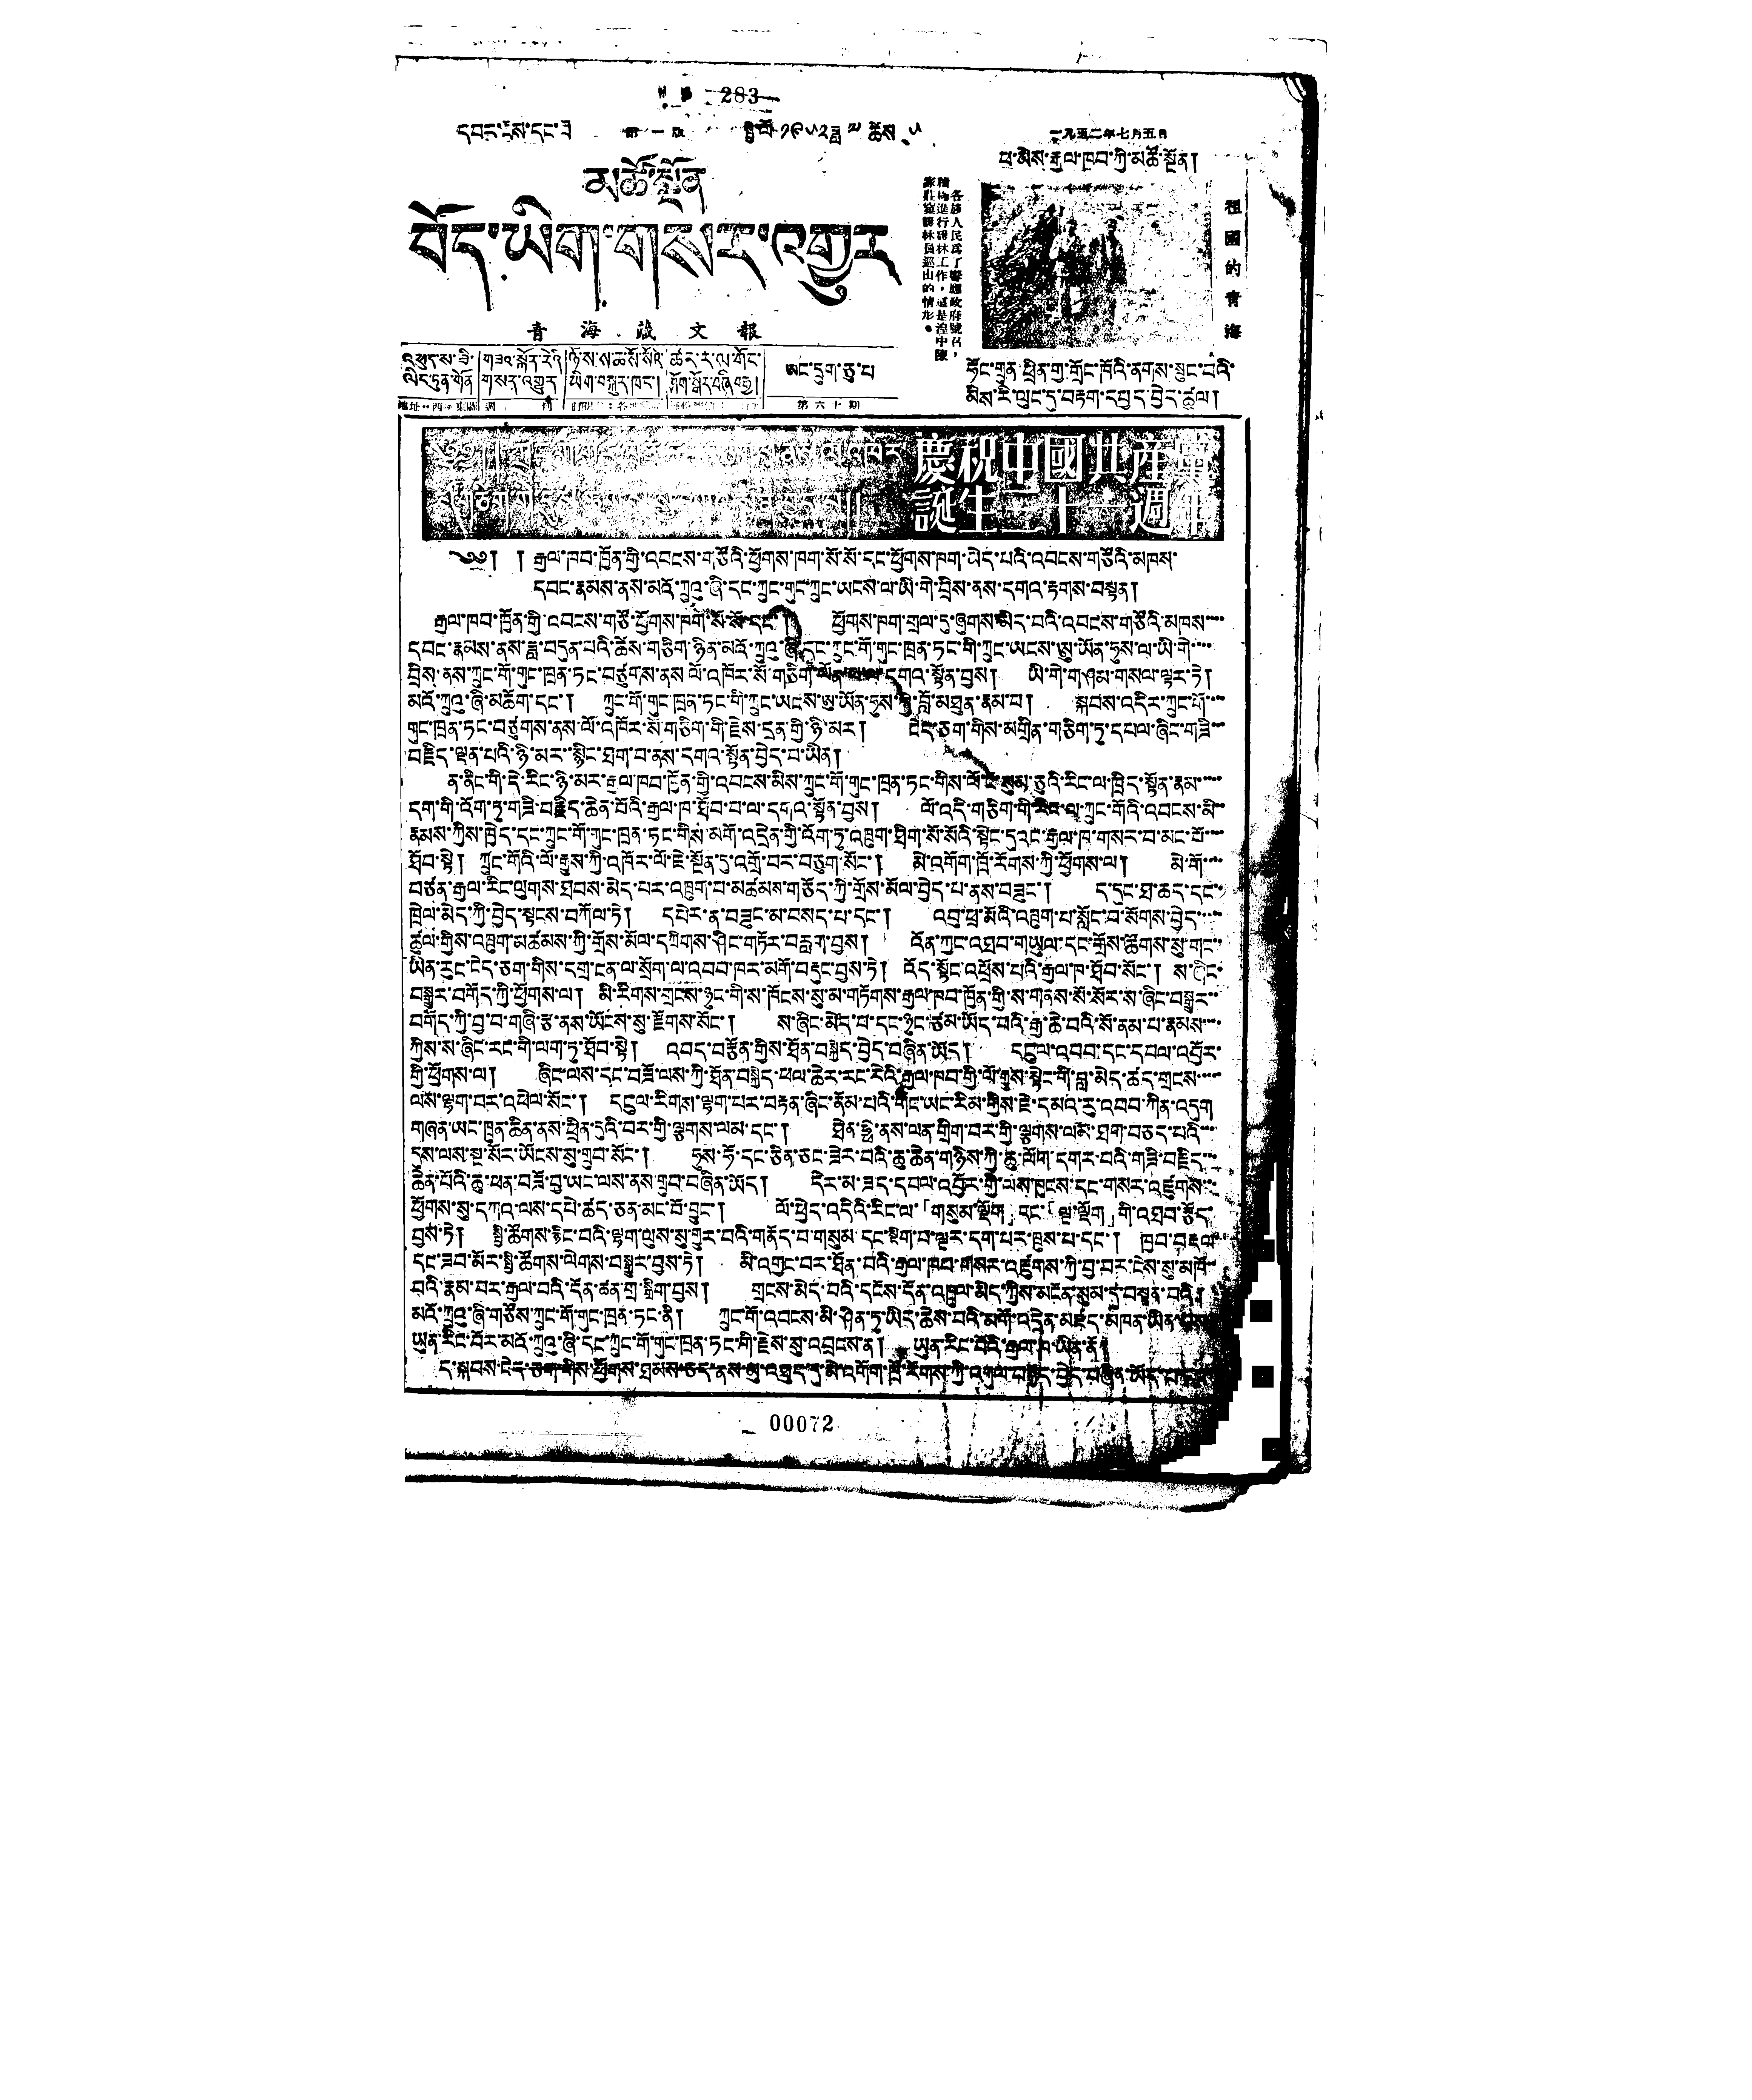283
འདར་ངོས་དང་པོ 第一版 སྤྱི་ལོ་ ༡༩༥༢ཟླ ༧ ཚེས ༥
མཚོ་སྔོན
བོད་ཡིག་གསར་འགྱུར
青 海 藏 文 報
祖 國 的 靑 海
各族人民爲了相應政府號召，
積極進行護林工作，這是湟中陳
家莊窠護林員巡山的情況。
一九五二年七月五日
ཕ་མེས་རྒྱལ་ཁབ་ཀྱི་མཚོ་སྔོན།
ཧོར་གྲུན ཕྲིན་གྱ་གྲོང་ཁོའི་ནགས་སྲུང་བའི་
མིས་རི་ལུང་དུ་བརྟག་དཔྱད་བྱེད་ཚུལ།
༄༅། །ཀྲུང་གོ་གུང་ཁྲན་ཏང་བཙུགས་ནས་ལོ་འཁོར་ 慶祝中國共產黨
སོ་གཅིག་གི་དུས་ཚིགས་སུ་དགའ་སྟོན་བྱེད་པ།། 誕生三十一週年
༄༅། ། རྒྱལ་ཁབ་ཁྱོན་གྱི་འབངས་གཙོའི་ཕྱོགས་ཁག་སོ་སོ་དང་ཕྱོགས་ཁག་མེད་པའི་འབངས་གཙོའི་མཁས་
དབང་རྣམས་ནས་མའོ་ཀྲུའུ་ཞི་དང་ཀྲུང་གུང་ཀྲུང་ཡངས་ལ་ཡི་གེ་བྲིས་ནས་དགའ་རྟགས་བསྟན།
རྒྱལ་ཁབ་ཁྱོན་གྱི་འབངས་གཙོ་ཕྱོགས་ཁག་སོ་སོ་དང་། ཕྱོགས་ཁག་གྲལ་དུ་ཞུགས་མེད་པའི་འབངས་གཙོའི་མཁས་་་་
དབང་རྣམས་ནས་ཟླ་བདུན་པའི་ཚེས་གཅིག་ཉིན་མའོ་ཀྲུའུ་ཞི་དང་ཀྲུང་གོ་གུང་ཁྲན་ཏང་གི་ཀྲུང་ཡངས་ཨུ་ཡོན་ཧུས་ལ་ཡི་གེ་་་་
བྲིས་ནས་ཀྲུང་གོ་གུང་ཁྲན་ཏང་བཙུགས་ནས ལོ་འཁོར་སོ་གཅིག་ལོན་པ་ལ་དགའ་སྟོན་བྱས། ཡི་གེ་གཤམ་གསལ་ལྟར་ཏེ།
མའོ་ཀྲུའུ་ཞི་མཆོག་དང་། ཀྲུང་གོ་གུང་ཁྲན་ཏང་གི་ཀྲུང་ཡངས་ཨུ་ཡོན་ཧུས་ཀྱི་བློ་མཐུན་རྣམ་པ། སྐབས་འདིར་ཀྲུང་གོ་་་་
གུང་ཁྲན་ཏང་བཙུགས་ནས་ལོ་འཁོར་ས་གཅིག་གི་རྗེས་དྲན་གྱི་ཉི་མར། བེད་ཅག་གིས་མགྲིན་གཅིག་ཏུ་དཔལ་ཞིང་གཟི་་་
བརྗིད་ལྡན་པའི་ཉི་མར་་སྙིང་ཐག་པ་ནས་དགའ་སྟོན་བྱེད་པ་ཡིན།
ན་ནིང་གི་དེ་རིང་ཉི་མར་རྒྱལ་ཁབ་ཁྱོན་གི་འབངས་མིས་ཀྲུང་གོ་གུང་ཁྲན་ཏང་གིས་ལོ་ངོ་སུམ་ཅུའི་རིང་ལ་ཁྲིད་སྟོན་རྣམ་་་་་
དག་གི་འོག་ཏུ་གཟི་བརྗིད་ཆེན་པོའི་རྒྱལ་ཁ་ཐོབ་པ་ལ་དགའ་སྟོན་བྱས། ལོ་འདི་གཅིག་གི་རིང་ལ་ཀྲུང་གོའི་འབངས་མི་་
རྣམས་ཀྱིས་ཁྱེད་དང་ཀྲུང་གོ་གུང་ཁྲན་ཏང་གིས་མགོ་འདྲེན་གྱི་འོག་ཏུ་འཁྲུག་ཐིག་སོ་སོའི་སྟེང་དུའང་རྒྱལ་ཁ་གསར་བ་མང་པོ་་་་
ཐོབ་སྟེ། ཀྲུང་གོའི་ལོ་རྒྱུས་ཀྱི་འཁོར་ལོ་ཇེ་སྔོན་དུ་འགྲོ་བར་བཅུག་སོང་། མེ་འགོག་ཁྲོ་རོགས་ཀྱི་ཕྱོགས་ལ། མེ་གོ་་་་
བཙན་རྒྱལ་རིང་ལུགས་ཐབས་མེད་པར་འཁྲུག་པ་མཚམས་གཅོད་ཀྱི་གྲོས་མོལ་བྱེད་པ་ནས་བཟུང་། ད་དུང་ཐ་ཆད་དང་་
ཁྲེལ་མེད་ཀྱི་བྱེད་སྟངས་བཀོལ་ཏེ། དཔེར་ན་བཟུང་མ་བསད་པ་དང་། འབུ་ཕྲ་མོའི་འཁྲུག་པ་སློང་བ་སོགས་བྱེད་་་་་
ཚུལ་གྱིས་འཁྲུག་མཚམས་ཀྱི་གྲོས་མོལ་དཀྲིགས་ཤིང་གཏོར་བརླག་བྱས། འོན་ཀྱང་འཐབ་གཡུལ་དང་གྲོས་ཚོགས་སུ་གང་་
ཡིན་རུང་ངེད་ཅག་གིས་དགྲ་ངན་ལ་སྲོག་ལ་འབབ་ཁར་མགོ་བརྡུང་བྱས་ཏེ། འོད་སྟོང་འཕྲོས་པའི་རྒྱལ་ཁ་ཐོབ་སོང་། ས་ཞིང་
བསྒྱུར་བགོད་ཀྱི་ཕྱོགས་ལ། མི་རིགས་གྲངས་ཉུང་གི་ས་ཁོངས་སུ་མ་གཏོགས་རྒྱལ་ཁབ་ཁྱོན་གྱི་ས་གནས་སོ་སོར་ས་ཞིང་བསྒྱུར་་
བགོད་ཀྱི་བྱ་བ་གཞི་རྩ་ནས་ཡོངས་སུ་རྫོགས་སོང་། ས་ཞིང་མེད་པ་དང་ཉུང་ཙམ་ཡོད་པའི་རྒྱ་ཆེ་བའི་སོ་ནམ་པ་རྣམས་་་་
ཀྱིས་ས་ཞིང་རང་གི་ལག་ཏུ་ཐོབ་སྟེ། འབད་བརྩོན་གྱིས་ཐོན་བསྐྱེད་བྱེད་བཞིན་ཡོད། དངུལ་འབབ་དང་དཔལ་འབྱོར་
གྱི་ཕྱོགས་ལ། ཞིང་ལས་དང་བཟོ་ལས་ཀྱི་ཐོན་བསྐྱེད་ཕལ་ཆེར་རང་རེའི་རྒྱལ་ཁབ་གྱི་ལོ་རྒྱུས་སྟེང་གི་བླ་མེད་ཚད་གྲངས་་་་་
ལས་ལྷག་པར་འཕེལ་སོང་། དངུལ་རིགས་ལྷག་པར་བརྟན་ཞིང་ནོམ་པའི་གང་ཡང་རིམ་གྱིས་ཇེ་དམའ་རུ་འབབ་ཀིན་འདུག
གཞན་ཡང་ཁྲུན་ཆིན་ནས་ཕྲིན་དུའི་བར་གྱི་ལྕགས་ལམ་དང་། ཐེན་ཧྥེ་ནས་ལན་གྲིག་བར་གྱི་ལྕགས་ལམ་ཐག་བཅད་པའི་་་
དུས་ལས་སྔ་སོར་ཡོངས་སུ་གྲུབ་སོང་། ཧུས་ཧོ་དང་ཅིན་ཅང་ཟེར་བའི་ཆུ་ཆེན་གཉིས་ཀྱི་ཆུ་ལོག་དགར་བའི་གཟི་བརྗིད་་་
ཆེན་པོའི་ཆུ་ཕན་བཟོ་བྱ་ཡང་ལས་ནས་གྲུབ་བཞིན་ཡོད། དེར་མ་ཟད་དཔལ་འབྱོར་གྱི་ལས་ཁུངས་དང་གསར་འཛུགས་་་
ཕྱོགས་སུ་དཀའ་ལས་དཔེ་ཚད་ཅན་མང་པོ་བྱུང་། ལོ་ཕྱེད་འདིའི་རིང་ལ་「གསུམ་ལྡོག」དང་「ལྔ་ལྡོག」གི་འཐབ་རྩོད་
བྱས་ཏེ། སྤྱི་ཚོགས་རྙིང་བའི་ལྷག་ལུས་སུ་གྱུར་བའི་གནོད་པ་གསུམ་དང་སྡིག་བ་ལྔར་དག་པར་ཁྲུས་པ་དང་། ཁྱབ་བརྡལ་་
དང་ཟབ་མོར་སྤྱི་ཚོགས་ལེགས་བསྒྱུར་བྱས་ཏེ། མི་འགྱང་བར་ཐོན་པའི་རྒྱལ་ཁབ་གསར་འཛུགས་ཀྱི་བྱ་བར་ངེས་སུ་མཁོ་་
བའི་རྣམ་པར་རྒྱལ་བའི་དོན་ཚན་གྲ་སྒྲིག་བྱས། གྲངས་མེད་པའི་དངོས་དོན་འཁུལ་མེད་ཀྱིས་མངོན་སུམ་དུ་བསྟན་པའི་
མའོ་ཀྲུའུ་ཞི་གཙོས་ཀྲུང་གོ་གུང་ཁྲན་ཏང་ནི། ཀྲུང་གོ་འབངས་མི་ཤིན་ཏུ་ཡིད་ཆེས་པའི་མགོ་འདྲེན་མཛད་མཁན་ཡིན་པས
ཡུན་རིང་བོར་མའོ་ཀྲུའུ་ཞི་དང་ཀྲུང་གོ་གུང་ཁྲན་ཏང་གི་རྗེས་སུ་འབྲངས་ན། ཡུན་རིང་པོའི་རྒྱལ་ཁ་ཡིན་ནོ།
ད་སྐབས་ངེད་ཅག་གིས་ཕྱོགས་ཐམས་ཅད་ནས་མུ་འཐུད་དུ་མེ་འགོག་ཁྲོ་རོགས་ཀྱི་འགུལ་བསྒྱོད་བྱེད་བཞིན་ཡོད་པ་དང་
00072
